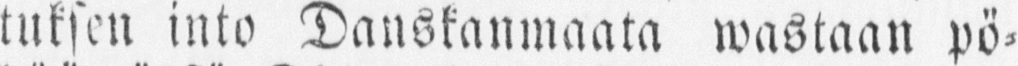tuksen into Danskanmaata wastaan pö-
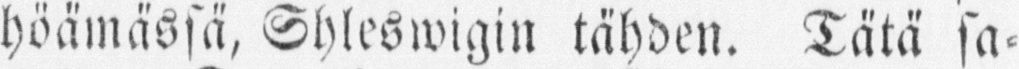höämässä, Shleswigin tähden. Tätä sa-
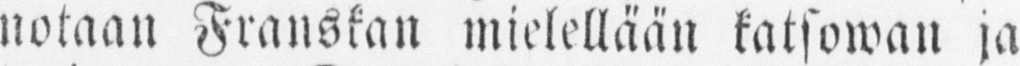notaan Franskan mielellään katsowan ja
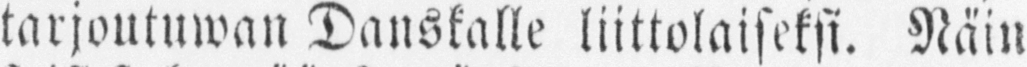tarjoutuwan Danskalle liittolaiseksi. Näin
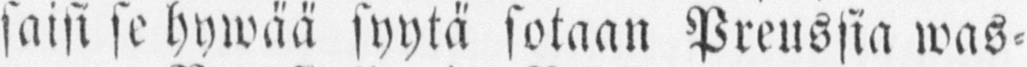saisi se hywää syytä sotaan Preussia was-
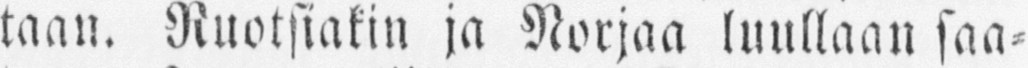taan. Ruotsiakin ja Norjaa luullaan saa-
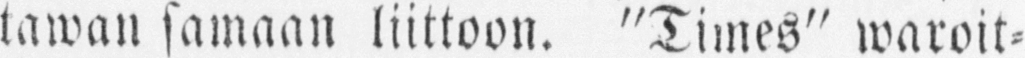tawan samaan liittoon. "Times" waroit-
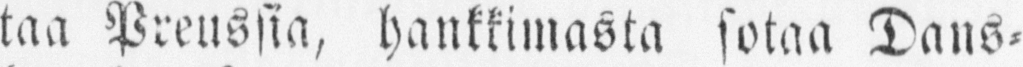taa Preussia, hankkimasta sotaa Dans-
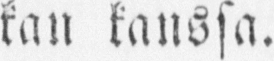kan kanssa.
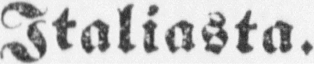Italiasta.
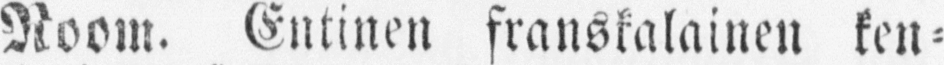Room. Entinen franskalainen ken-
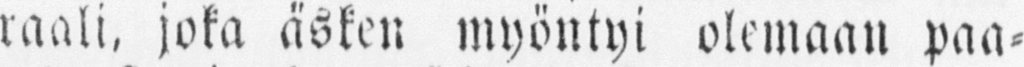raali, joka äsken myöntyi olemaan paa-
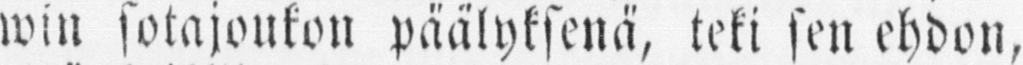win sotajoukon päälyksenä, teki sen ehdon,
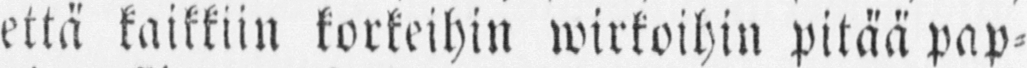että kaikkiin korkeihin wirkoihin pitää pap-
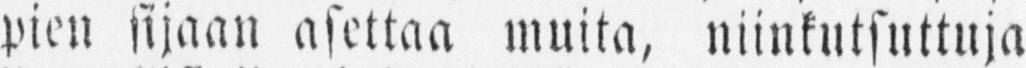pien sijaan asettaa muita, niinkutsuttuja
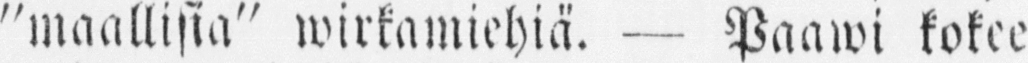"maallisia" wirkamiehiä. — Paawi kokee
